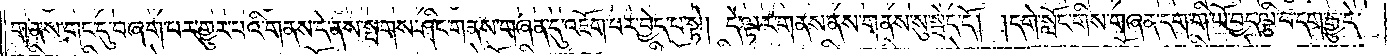གནས་གང་དུ་བཞག་པར་གྱུར་པའི་གནས་དེ་ནས་སྤགས་ཤིང་གནས་གཞན་དུ་འཇོག་པར་བྱེད་པ་སྟེ། དེ་ལྟར་གནས་ནས་གནས་སུ་སྦེད་དོ། །དགེ་སློང་གིས་གཞན་དག་གི་ཡོ་བྱད་ལྕི་བ་དག་རྒྱུ་དེ་
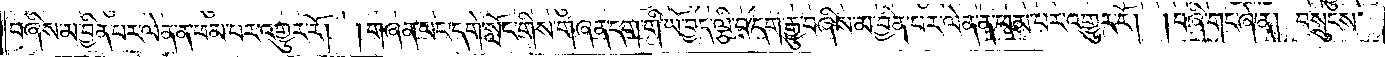བཞིས་མ་བྱིན་པར་ལེན་ན་ཕམ་པར་འགྱུར་རོ། །གཞན་ཡང་དགེ་སློང་གིས་གཞན་དག་གི་ཡོ་བྱད་ལྕི་བ་དག་རྒྱུ་བཞིས་མ་བྱིན་པར་ལེན་ན་ཕམ་པར་འགྱུར་རོ། །བཞི་གང་ཞེ་ན། བསྲུངས་
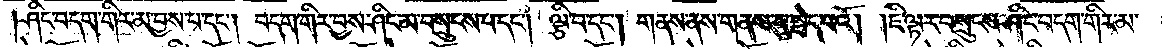ཤིང་བདག་གིར་མ་བྱས་པ་དང༌། བདག་གིར་བྱས་ཤིང་མ་བསྲུངས་པ་དང༌། ལྕི་བ་དང༌། གནས་ནས་གནས་སུ་སྦེད་པའོ། །ཇི་ལྟར་བསྲུངས་ཤིང་བདག་གིར་མ་
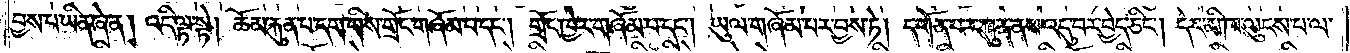བྱས་པ་ཡིན་ཞེ་ན། འདི་ལྟ་སྟེ། ཆོམ་རྐུན་པ་དག་གིར་གྲོང་གཞོམ་པ་དང༌། གྲོང་ཁྱེར་གཞོམ་པ་དང༌། ཡུལ་གཞོམ་པར་བྱས་ཏེ། དགོན་པར་ཀུན་ནས་འདུ་བར་བྱེད་ཅིང༌། དེར་མི་ཁ་ལུངས་པ་ལ་
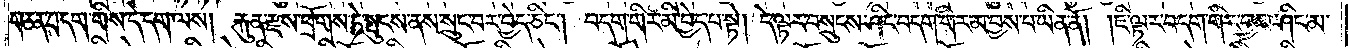གཅན་བདག་གིས་དེ་དག་ལས། རྐུན་རྫས་ཕྲོགས་ཏེ་སྤུངས་ནས་སྲུང་བར་བྱེད་ཅིང༌། བདག་གིར་མི་བྱེད་པ་སྟེ། དེ་ལྟར་བསྲུངས་ཤིང་བདག་གིར་མ་བྱས་པ་ཡིན་ནོ། །ཇི་ལྟར་བདག་གིར་བྱས་ཤིང་མ་
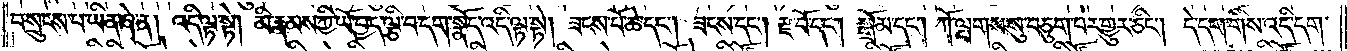བསྲུངས་པ་ཡིན་ཞེ་ན། འདི་ལྟ་སྟེ། མི་རྣམས་ཀྱི་ཡོ་བྱད་ལྕི་བ་དག་སྣོད་འདི་ལྟ་སྟེ། ཟངས་པོ་ཆེ་དང༌། ཟངས་དང༌། རྫ་བོ་དང༌། སྒྲོམ་དང༌། ཀོ་ལྤགས་སུ་བཅུག་པར་གྱུར་ཅིང༌། དེ་དག་གིས་འདི་དག་
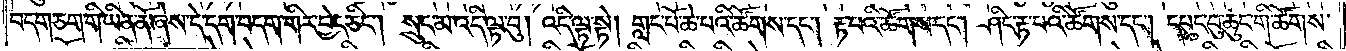བདག་ཅག་གི་ཡིན་ནོ་ཞེས་དེ་དག་བདག་གིར་བྱེད་ཅིང༌། སྲུང་མ་འདི་ལྟ་བུ། འདི་ལྟ་སྟེ། གླང་པོ་ཆེ་པའི་ཚོགས་དང༌། རྟ་པའི་ཚོགས་དང༌། ཤིང་རྟ་པའི་ཚོགས་དང༌། དཔུང་བུ་ཆུང་གི་ཚོགས་
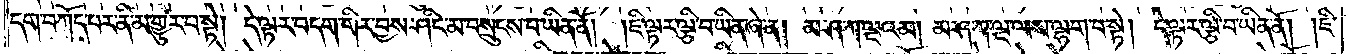དག་བཀོད་པར་ནི་མ་གྱུར་པ་སྟེ། དེ་ལྟར་བདག་གིར་བྱས་ཤིང་མ་བསྲུངས་པ་ཡིན་ནོ། །ཇི་ལྟར་ལྕི་བ་ཡིན་ཞེ་ན། མ་ཤ་ཀ་ལྔའམ། མ་ཤ་ཀ་ལྔ་ལས་ལྷག་པ་སྟེ། དེ་ལྟར་ལྕི་བ་ཡིན་ནོ། །ཇི་
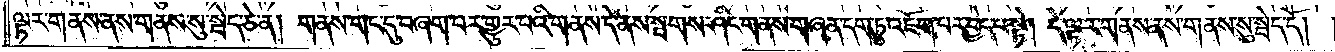ལྟར་གནས་ནས་གནས་སུ་སྦེད་ཅེ་ན། གནས་གང་དུ་བཞག་པར་གྱུར་པའི་གནས་དེ་ནས་སྤགས་ཤིང་གནས་གཞན་དག་ཏུ་འཇོག་པར་བྱེད་པ་སྟེ། དེ་ལྟར་གནས་ནས་གནས་སུ་སྦེད་དོ། །
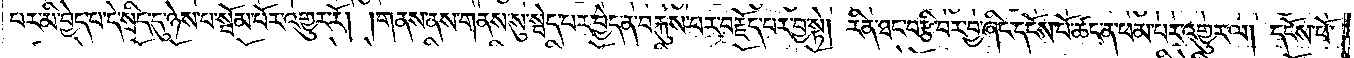པར་མི་བྱེད་པ་དེ་སྲིད་དུ་ཉེས་པ་སྦོམ་པོར་འགྱུར་རོ། །གནས་ནས་གནས་སུ་སྦེད་པར་བྱེད་ན་བརྐུས་པར་བརྗོད་པར་བྱ་སྟེ། རིན་ཐང་བརྩི་བར་བྱ་ཞིང་དངོས་པོ་ཚང་ན་ཕམ་པར་འགྱུར་ལ། དངོས་པོ་
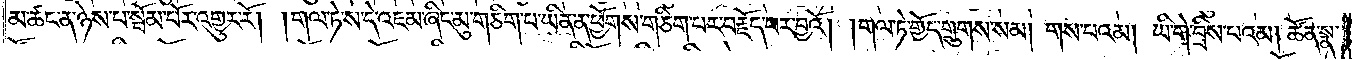མ་ཚང་ན་ཉེས་པ་སྦོམ་པོར་འགྱུར་རོ། །གལ་ཏེ་ས་དེ་འཇམ་ཞིང་མུ་གཅིག་པ་ཡིན་ན་ཕྱོགས་གཅིག་པར་བརྗོད་པར་བྱའོ། །གལ་ཏེ་གྱོད་གྲུགས་སམ། གས་པའམ། ཡི་གེ་བྲིས་པའམ། ཚོན་སྣ་
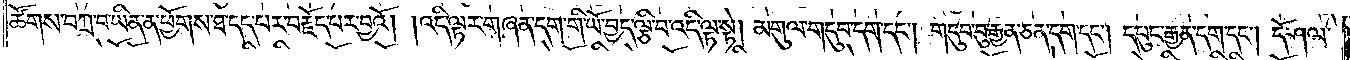ཚོགས་བཀྲ་བ་ཡིན་ན་ཕྱོགས་ཐ་དད་པར་བརྗོད་པར་བྱའོ། །འདི་ལྟར་གཞན་དག་གི་ཡོ་བྱད་ལྕི་བ་འདི་ལྟ་སྟེ། མགུལ་གདུབ་དག་དང༌། གདུབ་བུ་རྒྱན་ཅན་དག་དང༌། དཔུང་རྒྱན་དག་དང༌། དོ་ཤལ་
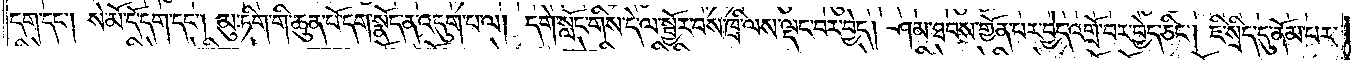དག་དང༌། སེ་མོ་དོ་དག་དང༌། མུ་ཏིག་གི་ཆུན་པོ་དག་སྣོད་ན་འདུག་པ་ལ། དགེ་སློང་གིས་དེ་ལ་སྦྱོར་བས་ཁྲི་ལས་ལྡང་བར་བྱེད། ཤམ་ཐབས་གྱོན་པར་བྱེད་འགྲོ་བར་བྱེད་ཅིང༌། ཇི་སྲིད་དུ་ནོམ་པར་
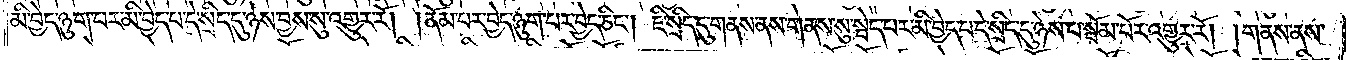མི་བྱེད་ཉུག་པར་མི་བྱེད་པ་དེ་སྲིད་དུ་ཉེས་བྱས་སུ་འགྱུར་རོ། །ནོམ་པར་བྱེད་ཉུག་པར་བྱེད་ཅིང༌། ཇི་སྲིད་དུ་གནས་ནས་གནས་སུ་སྦེད་པར་མི་བྱེད་པ་དེ་སྲིད་དུ་ཉེས་པ་སྦོམ་པོར་འགྱུར་རོ། །གནས་ནས་
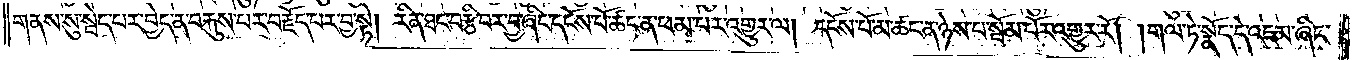གནས་སུ་སྦེད་པར་བྱེད་ན་བརྐུས་པར་བརྗོད་པར་བྱ་སྟེ། རིན་ཐང་བརྩི་བར་བྱ་ཞིང་དངོས་པོ་ཚང་ན་ཕམ་པར་འགྱུར་ལ། དངོས་པོ་མ་ཚང་ན་ཉེས་པ་སྦོམ་པོར་འགྱུར་རོ། །གལ་ཏེ་སྣོད་དེ་འཇམ་ཞིང་
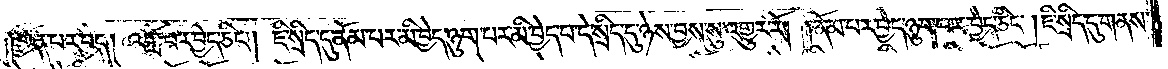གྱོན་པར་བྱེད། འགྲོ་བར་བྱེད་ཅིང༌། ཇི་སྲིད་དུ་ནོམ་པར་མི་བྱེད་ཉུག་པར་མི་བྱེད་པ་དེ་སྲིད་དུ་ཉེས་བྱས་སུ་འགྱུར་རོ། །ནོམ་པར་བྱེད་ཉུག་པར་བྱེད་ཅིང༌། ཇི་སྲིད་དུ་གནས་
